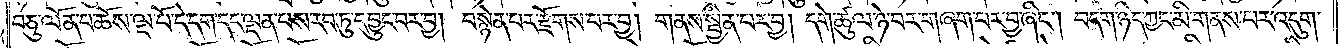བཅུ་ལོན་པ་ཆོས་ལྔ་པོ་དེ་དག་དང་ལྡན་པས་རབ་ཏུ་དབྱུང་བར་བྱ། བསྙེན་པར་རྫོགས་པར་བྱ། གནས་སྦྱིན་པར་བྱ། དགེ་ཚུལ་ཉེ་བར་གཞག་པར་བྱ་ཞིང༌། བདག་ཉིད་ཀྱང་མི་གནས་པར་འདུག་
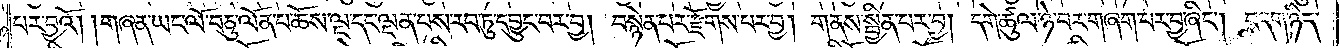པར་བྱའོ། །གཞན་ཡང་ལོ་བཅུ་ལོན་པ་ཆོས་ལྔ་དང་ལྡན་པས་རབ་ཏུ་དབྱུང་བར་བྱ། བསྙེན་པར་རྫོགས་པར་བྱ། གནས་སྦྱིན་པར་བྱ། དགེ་ཚུལ་ཉེ་བར་གཞག་པར་བྱ་ཞིང༌། བདག་ཉིད་
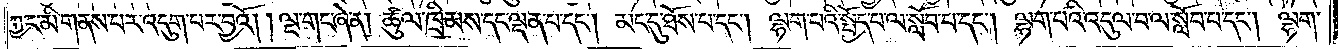ཀྱང་མི་གནས་པར་འདུག་པར་བྱའོ། །ལྔ་གང་ཞེ་ན། ཚུལ་ཁྲིམས་དང་ལྡན་པ་དང༌། མང་དུ་ཐོས་པ་དང༌། ལྷག་པའི་སྤྱོད་པ་ལ་སློབ་པ་དང༌། ལྷག་པའི་འདུལ་བ་ལ་སློབ་པ་དང༌། ལྷག་
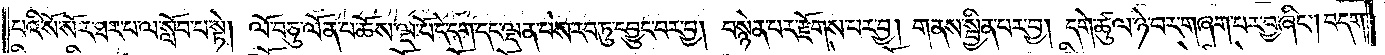པའི་སོ་སོར་ཐར་པ་ལ་སློབ་པ་སྟེ། ལོ་བཅུ་ལོན་པ་ཆོས་ལྔ་པོ་དེ་དག་དང་ལྡན་པས་རབ་ཏུ་དབྱུང་བར་བྱ། བསྙེན་པར་རྫོགས་པར་བྱ། གནས་སྦྱིན་པར་བྱ། དགེ་ཚུལ་ཉེ་བར་གཞག་པར་བྱ་ཞིང༌། བདག་
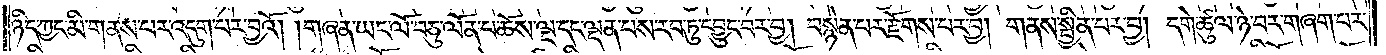ཉིད་ཀྱང་མི་གནས་པར་འདུག་པར་བྱའོ། །གཞན་ཡང་ལོ་བཅུ་ལོན་པ་ཆོས་ལྔ་དང་ལྡན་པས་རབ་ཏུ་དབྱུང་བར་བྱ། བསྙེན་པར་རྫོགས་པར་བྱ། གནས་སྦྱིན་པར་བྱ། དགེ་ཚུལ་ཉེ་བར་གཞག་པར་
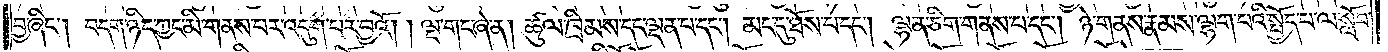བྱ་ཞིང༌། བདག་ཉིད་ཀྱང་མི་གནས་པར་འདུག་པར་བྱའོ། །ལྔ་གང་ཞེ་ན། ཚུལ་ཁྲིམས་དང་ལྡན་པ་དང༌། མང་དུ་ཐོས་པ་དང༌། ལྷན་ཅིག་གནས་པ་དང༌། ཉེ་གནས་རྣམས་ལྷག་པའི་སྤྱོད་པ་ལ་སློབ་
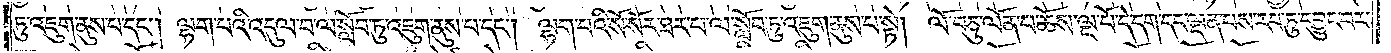ཏུ་འཇུག་ནུས་པ་དང༌། ལྷག་པའི་འདུལ་བ་ལ་སློབ་ཏུ་འཇུག་ནུས་པ་དང༌། ལྷག་པའི་སོ་སོར་ཐར་པ་ལ་སློབ་ཏུ་འཇུག་ནུས་པ་སྟེ། ལོ་བཅུ་ལོན་པ་ཆོས་ལྔ་པོ་དེ་དག་དང་ལྡན་པས་རབ་ཏུ་དབྱུང་བར་
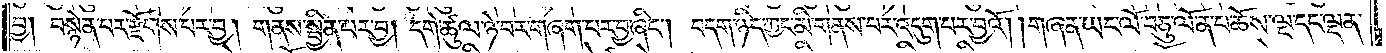བྱ། བསྙེན་པར་རྫོགས་པར་བྱ། གནས་སྦྱིན་པར་བྱ། དགེ་ཚུལ་ཉེ་བར་གཞག་པར་བྱ་ཞིང༌། བདག་ཉིད་ཀྱང་མི་གནས་པར་འདུག་པར་བྱའོ། །གཞན་ཡང་ལོ་བཅུ་ལོན་པ་ཆོས་ལྔ་དང་ལྡན་
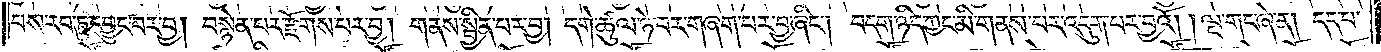པས་རབ་ཏུ་དབྱུང་བར་བྱ། བསྙེན་པར་རྫོགས་པར་བྱ། གནས་སྦྱིན་པར་བྱ། དགེ་ཚུལ་ཉེ་བར་གཞག་པར་བྱ་ཞིང༌། བདག་ཉིད་ཀྱང་མི་གནས་པར་འདུག་པར་བྱའོ། །ལྔ་གང་ཞེ་ན། དད་པ་
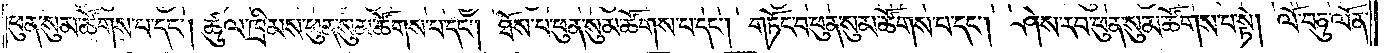ཕུན་སུམ་ཚོགས་པ་དང༌། ཚུལ་ཁྲིམས་ཕུན་སུམ་ཚོགས་པ་དང༌། ཐོས་པ་ཕུན་སུམ་ཚོགས་པ་དང༌། གཏོང་བ་ཕུན་སུམ་ཚོགས་པ་དང༌། ཤེས་རབ་ཕུན་སུམ་ཚོགས་པ་སྟེ། ལོ་བཅུ་ལོན་
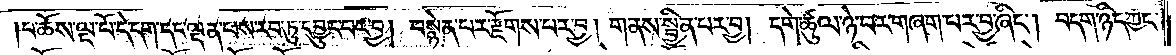པ་ཆོས་ལྔ་པོ་དེ་དག་དང་ལྡན་པས་རབ་ཏུ་དབྱུང་བར་བྱ། བསྙེན་པར་རྫོགས་པར་བྱ། གནས་སྦྱིན་པར་བྱ། དགེ་ཚུལ་ཉེ་བར་གཞག་པར་བྱ་ཞིང༌། བདག་ཉིད་ཀྱང་
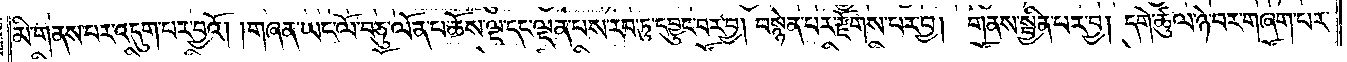མི་གནས་པར་འདུག་པར་བྱའོ། །གཞན་ཡང་ལོ་བཅུ་ལོན་པ་ཆོས་ལྔ་དང་ལྡན་པས་རབ་ཏུ་དབྱུང་བར་བྱ། བསྙེན་པར་རྫོགས་པར་བྱ། གནས་སྦྱིན་པར་བྱ། དགེ་ཚུལ་ཉེ་བར་གཞག་པར་
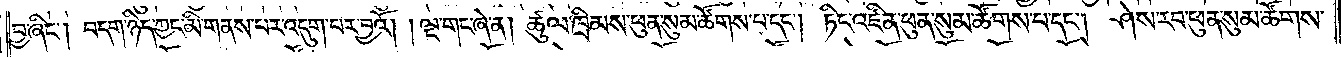བྱ་ཞིང༌། བདག་ཉིད་ཀྱང་མི་གནས་པར་འདུག་པར་བྱའོ། །ལྔ་གང་ཞེ་ན། ཚུལ་ཁྲིམས་ཕུན་སུམ་ཚོགས་པ་དང༌། ཏིང་འཛིན་ཕུན་སུམ་ཚོགས་པ་དང༌། ཤེས་རབ་ཕུན་སུམ་ཚོགས་
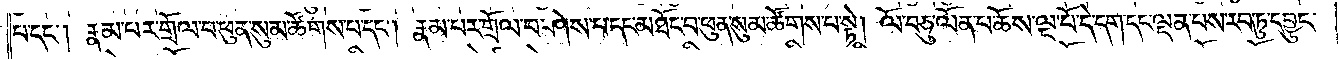པ་དང༌། རྣམ་པར་གྲོལ་བ་ཕུན་སུམ་ཚོགས་པ་དང༌། རྣམ་པར་གྲོལ་བ་ཤེས་པ་དང་མཐོང་བ་ཕུན་སུམ་ཚོགས་པ་སྟེ། ལོ་བཅུ་ལོན་པ་ཆོས་ལྔ་པོ་དེ་དག་དང་ལྡན་པས་རབ་ཏུ་དབྱུང་
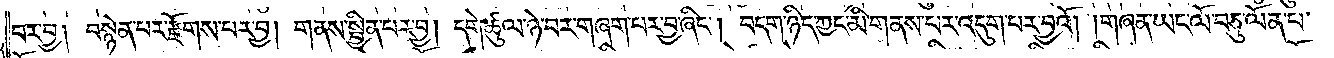བར་བྱ། བསྙེན་པར་རྫོགས་པར་བྱ། གནས་སྦྱིན་པར་བྱ། དགེ་ཚུལ་ཉེ་བར་གཞག་པར་བྱ་ཞིང༌། བདག་ཉིད་ཀྱང་མི་གནས་པར་འདུག་པར་བྱའོ། །གཞན་ཡང་ལོ་བཅུ་ལོན་པ་
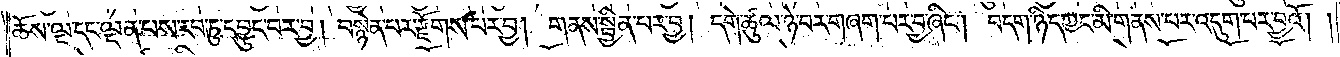ཆོས་ལྔ་དང་ལྡན་པས་རབ་ཏུ་དབྱུང་བར་བྱ། བསྙེན་པར་རྫོགས་པར་བྱ། གནས་སྦྱིན་པར་བྱ། དགེ་ཚུལ་ཉེ་བར་གཞག་པར་བྱ་ཞིང༌། བདག་ཉིད་ཀྱང་མི་གནས་པར་འདུག་པར་བྱའོ། །
